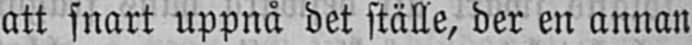att snart uppnå det ställe, der en annan
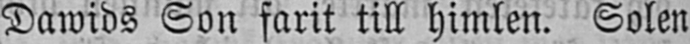Dawids Son farit till himlen. Solen
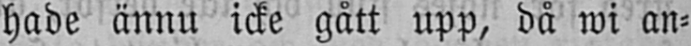hade ännu icke gått upp, då wi an-
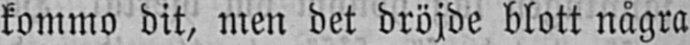kommo dit, men det dröjde blott några
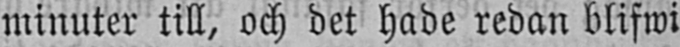minuter till, och det hade redan blifwi
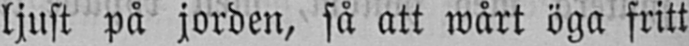ljust på jorden, så att wårt öga fritt
